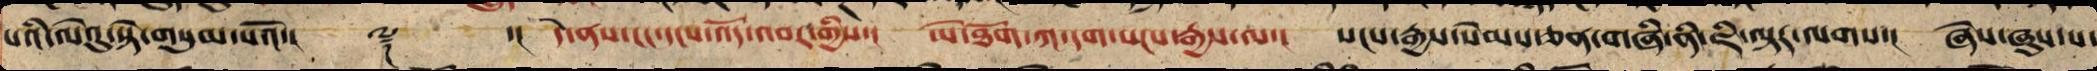པའི་ལེའུ་སྟེ་གསུམ་པའོ་།། ༈ ་།། དེ་ནས་ངང་དངས་འོད་འབར་གྱིས་། ཡེ་ཐོག་ཀ་དག་སངས་རྒྱས་ལ་། སངས་རྒྱས་སེམས་ཅན་གཞི་ནི་ཇི་ལྟར་ལགས་། ཞེས་ཞུས་པ་
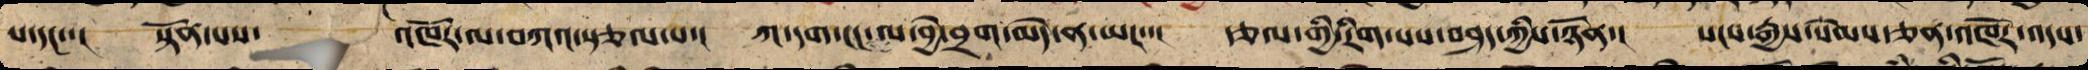དང་་། སྟོན་པས་འཁོར་ལ་བཀའ་སྩལ་པ་། ཀ་དག་ངང་ལ་བྱེ་བྲག་མེད་ན་ཡང་་། རྩལ་གྱི་རིག་པ་བཤད་ཀྱིས་ཉོན་། སངས་རྒྱས་སེམས་ཅན་འཁོར་འདས་
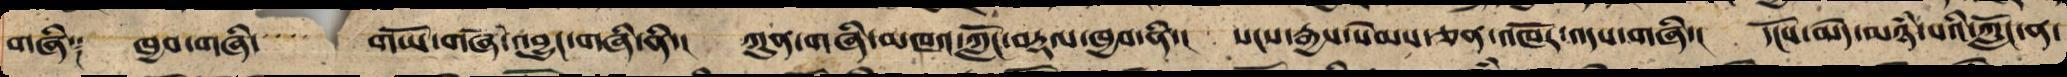གཞི༑ ཁྱབ་གཞི་གཡོ་གཞི་འབྱུང་གཞི་ནི་། ཀུན་གཞི་མཁའ་ཀློང་བརྡལ་ཁྱབ་ནི་། སངས་རྒྱས་སེམས་ཅན་འཁོར་འདས་གཞི་། དངོས་མེད་མཉཾ་པའི་ཀློང་ན་
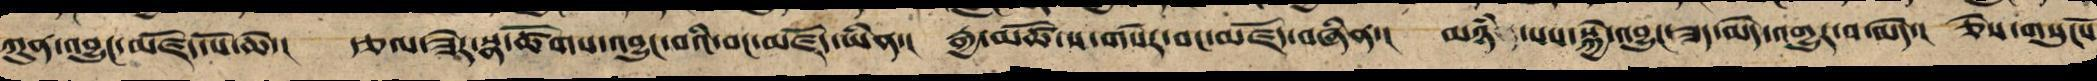ཀུན་འབྱུང་མཛོད་པོ་ཆེ་། རྩལ་ཟེར་སྣ་ཚོགས་འབྱུང་བའི་བང་མཛོད་ཡིན་། རྒྱ་མཚོ་ས་གསེར་བང་མཛོད་བཞིན་། མཉཾ་པས་སྐྱེ་འབྱུང་ཟད་མེད་འགྱུར་བ་མེད་། ཅེས་གསུངསོ
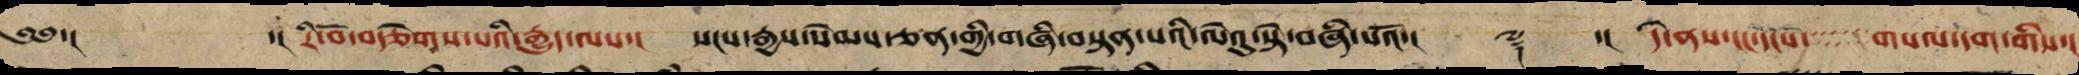༄༅་།    ་། རི་བོ་བརྩེགས་པའི་རྒྱུད་ལས་། སངས་རྒྱས་སེམས་ཅན་གྱི་གཞི་བསྟན་པའི་ལེའུ་སྟེ་བཞི་པའོ་།། ༈ ་།། དེ་ནས་ངང་དངས་གསལ་དག་གིས་།
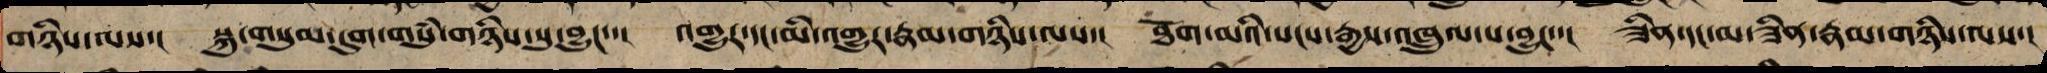གཉིས་ལས་། སྐུ་གསུམ་དུག་གསུཾ་གཉིས་སུ་བྱུང་་། འགྱུར་དང་མི་འགྱུར་རྣམ་གཉིས་ལས་། ཐོག་མའི་སངས་རྒྱས་འཁྲུལ་པ་བྱུང་་། ཟིན་དང་མ་ཟིན་རྣམ་གཉིས་ལས་།
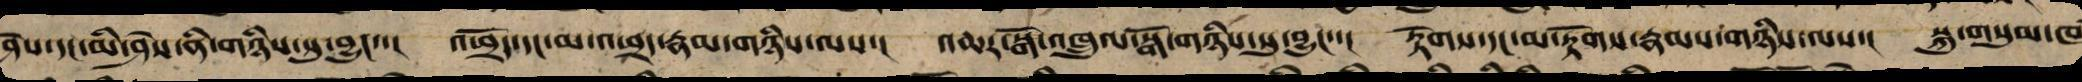ཤེས་མི་ཤེས་ནི་གཉིས་སུ་བྱུང་་། འཕྲོད་དང་མ་འཕྲད་རྣམ་གཉིས་ལས་། འཆར་སྒོ་འཁྲུལ་སྒོ་གཉིས་སུ་བྱུང་་། རྟོགས་དང་མ་རྟོགས་རྣམ་གཉིས་ལས་། སྐུ་གསུམ་ཁ
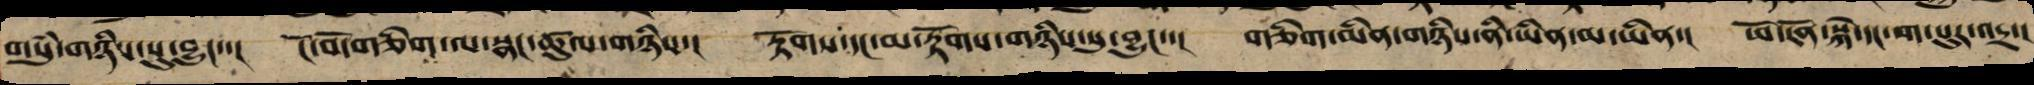གསུཾ་གཉིས་སུ་བྱུང་་། ངོ་བོ་གཅིག་ལ་སྣང་ཚུལ་གཉིས་། རྟོགས་དང་མ་རྟོགས་གཉིས་སུ་བྱུང་་། གཅིག་མིན་གཉིས་ནི་ཡིན་མ་ཡིན་། ཕུག་རོན་སྐེ་དང་ག་པུར་འདྲ་།
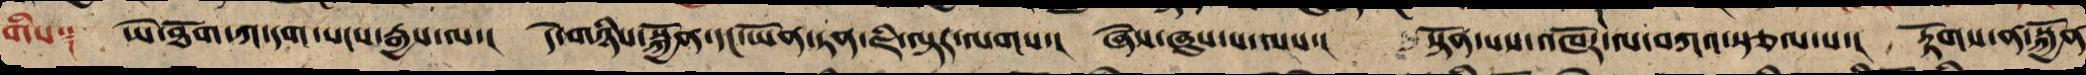གིས༑ ཡེ་ཐོག་ཀ་དག་སངས་རྒྱས་ལ་། དེ་གཉིས་སྐྱོན་དང་ཡོན་ཏན་ཇི་ལྟར་ལགས་། ཞེས་ཞུས་པ་ལས་། སྟོན་པས་འཁོར་ལ་བཀའ་སྩལ་པ་། རྟོགས་ན་སྐྱོན་
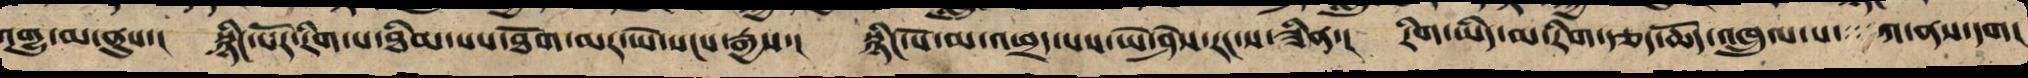འགྱུ་མ་ནུས་། སྙིང་པོ་རིག་པར་ཐིམ་པས་ཐོག་མར་ཡེ་སངས་རྒྱས་། སྙིང་པོ་མ་འཕྲད་པས་ཡེ་ཤེས་རང་ས་ཟིན་། རིག་ཡིད་མ་རིག་རྩད་ཆོད་འཁྲུལ་པ་ཀ་ནས་དག།
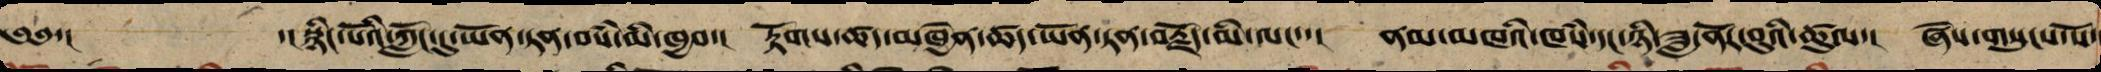༄༅་། ་།སྙིང་པོའི་ཀློང་དུ་ཡོན་ཏན་བསམ་མི་ཁྱབ་། རྟོགས་ཚད་མཁྱེན་ཚད་ཡོན་ཏན་བརྗོད་མི་ལང་་། ནམ་མཁའི་ཁཾས་དང་ཉི་ཟླ་ནོར་བུའི་ཚུལ་། ཞེས་གསུངས་སོ་
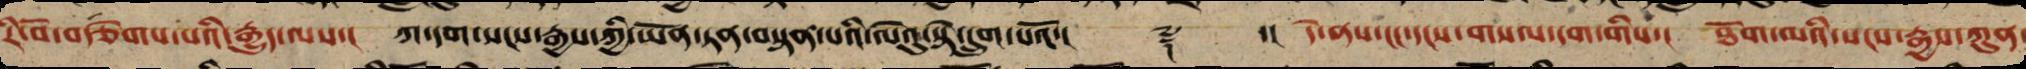རི་བོ་བརྩེགས་པའི་རྒྱུད་ལས་། ཀ་དག་སངས་རྒྱས་ཀྱི་ཡོན་ཏན་བསྟན་པའི་ལེའུ་སྟེ་དྲུག་པའོ་།། ༈ ་།། དེ་ནས་ངང་དངས་གསལ་དག་གིས་། ཐོག་མའི་སངས་རྒྱས་ཀུན་
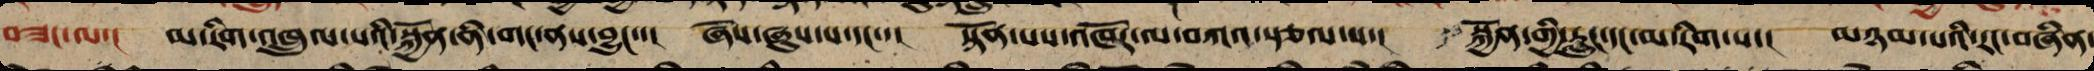བཟང་ལ་། མ་རིག་འཁྲུལ་པའི་སྐྱོན་ནི་གང་ནས་བྱུང་་། ཞེས་ཞུས་པ་དང་་། སྟོན་པས་འཁོར་ལ་བཀའ་སྩལ་པ་། སྐྱོན་ནི་རླུང་དང་མ་རིག་པ་། མཉམ་པའི་རང་བཞིན་
